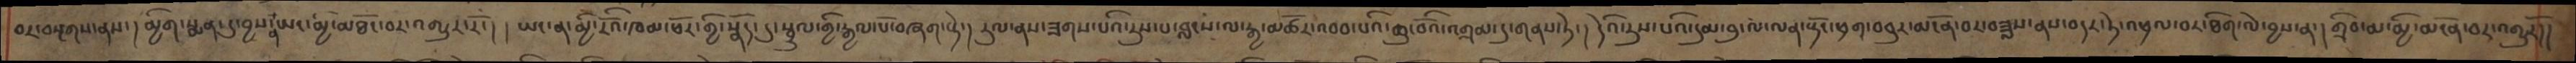བར་བསྔགས་ནས་། མྱིག་སྨན་དུ་བྱས་ན་ཡང་མྱི་མཐོང་བར་འགྱུར་རོ་། །ཡང་ན་མྱི་རོའི་ཁམ་ཕོར་གྱི་སྣོད་དུ་སྦྲུལ་གྱི་རྒྱལ་པོ་བཞག་སྟེ་། རུལ་ནས་ཟགས་པའི་རུས་པ་བླངས་ལ་རྒྱ་མཚོར་འབབ་པའི་ཆུ་བོའི་འགྲམ་དུ་གནས་ཏེ་། དེའི་རུས་པའི་དུམ་བུ་ལ་ལན་སྟོང་ཕྲག་བཅུར་མངོན་པར་བཟླས་ནས་བདར་ཏེ་འཕྲལ་བར་ཐིག་ལེ་བྱས་ན་། གྲིབ་མ་མྱི་མངོན་བར་འགྱུརོ།།
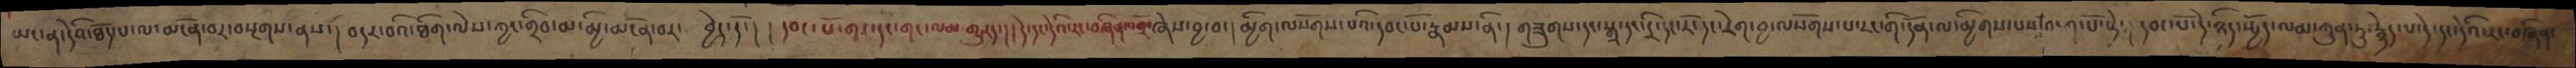ཡང་ན་དེའི་ཐོད་པ་ལ་མངོན་པར་བསྔགས་ནས་། བདར་བའི་ཐིག་ལེས་ཀྱང་གྲིབ་མ་མྱི་མངོན་བར་བྱེད་དོ་། །དབང་པོ་གང་དང་གང་ལམ་གྱུརད་། །དེ་དང་དེའི་རང་བཞིན་འགྲོ་ཞེས་བྱ་བ་། མྱིག་ལསོགས་པའི་དབང་པོ་རྣམས་ནི་། གཟུགས་དང་སྒྲ་དང་དྲི་དང་རོ་དང་རེག་བྱ་ལསོགས་པ་རང་གི་དོན་ལ་མྱིགས་པས་བདག་པོ་སྟེ། དབང་པོ་དེ་ཉིད་སྤྱོད་ལམ་ཀུན་ཏུ་རྙེད་པ་དེ་དང་དེའི་རང་བཞིན་
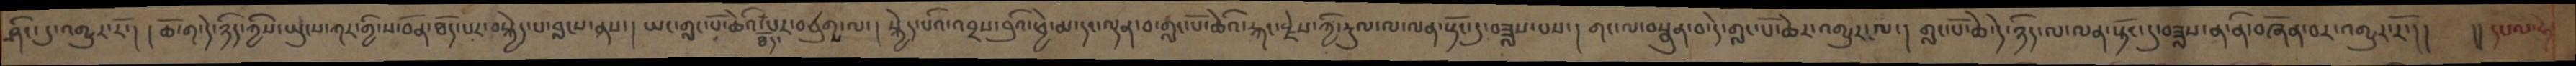ཤིན་ཏུ་འགྱུར་རོ་། །ཆོ་ག་དེ་ཉིད་ཀྱིས་ཡུངས་ཀར་གྱི་ས་བོན་ཐོད་པར་བསྐྱེད་པ་བླངས་ནས་། ཡང་གླང་པོ་ཆེའི་ཐོད་པར་བཙུགས་ལ་། སྐྱེད་པའི་འབྲས་བུའི་ཕྱེ་མ་དང་ལྡན་པ་གླང་པོ་ཆེའི་རྐང་རྗེས་ཀྱི་རྡུལ་ལ་ལན་སྟོང་དུ་བཟླས་པས་། གང་ལ་བསྣུན་པ་དེ་གླང་པོ་ཆེར་འགྱུར་ལ་། གླང་པོ་ཆེ་དེ་ཉིད་ལ་ལན་སྟོང་དུ་བཟླས་ན་ནི་བཞོན་པར་འགྱུར་རོ་།། །།དཔལ་ཧེ་
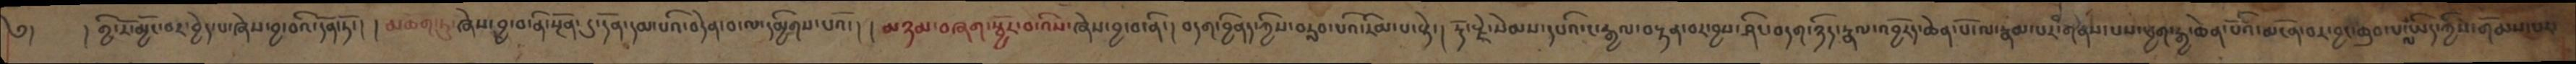༅། །གྱི་རོ་མྱོང་བར་བྱེད་པ་ཞེས་བྱ་བའི་དོན་ཏོ་། །མཆོག་ཏུ་ཞེས་བྱ་བ་ནི་སྔོན་དུ་དོན་དམ་པའི་བདེན་པ་ལ་དམྱིགས་པའོ་། །མཉམ་བཞག་སྦྱོར་བ་འིས་ཞེས་བྱ་བ་ནི་། བདག་བྱིནད་ཀྱིས་བརླབ་པའི་རིམ་པ་སྟེ། རྡོ་རྗེ་སེམས་དཔའི་ང་རྒྱལ་བསྟན་པར་བྱས་ཤིང་བདག་ཉིད་རྣལ་འབྱོརད་ཆེན་པོ་ལ་རྣམ་པར་གནས་པས་ཕྱག་རྒྱ་ཆེན་པོའི་མངོན་པར་བྱང་ཆུབ་པ་ལ་ཡོད་ཀྱིས་གོམས་པར་
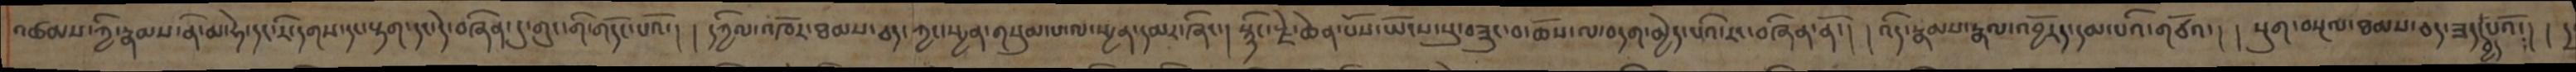འཚམས་ཀྱི་རྣམས་ནི་མ་ཧེ་དང་རི་དགས་དང་སྟག་དང་དེ་བཞིན་དུ་གུང་གི་གདོང་པའོ་། །དཀྱིལ་འཁོར་ཐམས་ཅད་ཀྱང་སྤྱན་གསུམ་པ་ལ་སྤྱན་དམར་ཞིང་། སྙིང་རྗེ་ཆེན་པོས་ཡོངས་སུ་བཟུང་བ་ཆོས་ལ་བདག་མྱེད་པའི་རང་བཞིན་ནོ་། །འདི་རྣམས་རྣལ་འབྱོརད་དམ་པའི་གཙོའ་། །སྡུག་བསྔལ་ཐམས་ཅད་ཟད་བྱེད་པའོ་། །
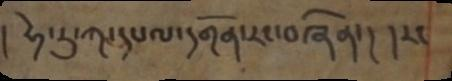།ཧེ་རུ་ཀ་དཔལ་དགོན་རང་བཞིན་། །རང་
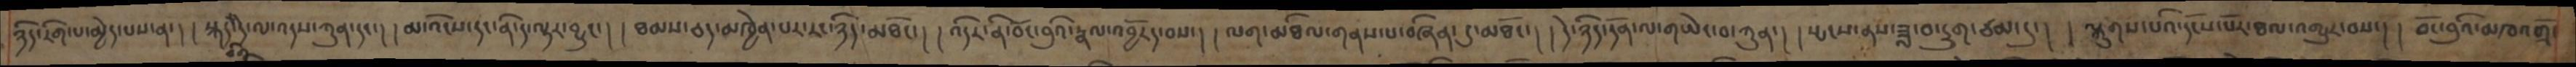ཉིད་རིག་པ་མྱེད་པས་ན་། །སྐད་ཅིག་དེ་ལ་འདས་ཀུན་དང་། །མ་འོངས་དང་ནི་དེ་ལྟར་བྱུང་། །ཐམས་ཅད་མཁྱེན་པར་རང་ཉིད་མཐོང་། །འདིར་ནི་བོང་བུའི་རྣལ་འབྱོརད་བས་། །ལག་མཐིལ་གནས་པ་བཞིན་དུ་མཐོང་། །དེ་ཉིད་དོན་ལ་གཡེང་བ་ཀུན་། །སྤངས་ནས་ཟླ་བ་དྲུག་ཙམ་དུ་། །ལྐུགས་པའི་དངོས་པོར་ཐལ་འགྱུར་བས་། །བོང་བུའི་མཁའགྲོ་
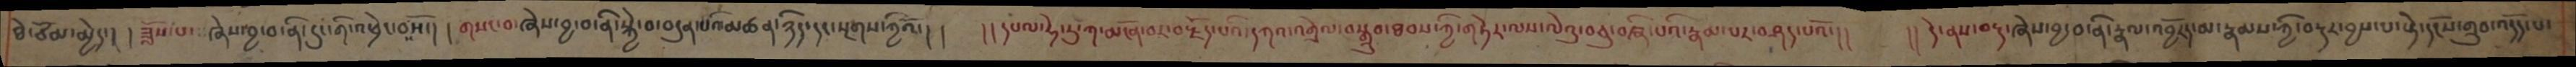ཐེ་ཙོམ་མྱེད་། །ཟློས་པ་ཞེས་བྱ་བ་ནི་དུང་གི་འཕྲེང་བསོ་། །གསང་བ་ཞེས་བྱ་བ་ནི་སྐྱེ་བ་བདུན་པའི་མཚན་ཉིད་དང་སྔགས་ཀྱིའོ་།།   །།དཔལ་ཧེ་རུ་ཀ་མངོན་བར་བརྗོད་པའི་དཀའ་འགྲེལ་བསྒྲུབ་ཐབས་ཀྱི་གཏེར་ལས་ལེའུ་བཅུ་བཞི་པའི་རྣམ་པར་བཤད་པའོ་།།   །།དེ་ནས་བརྡ་ཞེས་བྱ་བ་ནི་རྣལ་འབྱོརད་མ་རྣམས་ཀྱི་བརྡར་བྱས་པ་སྟེ་དངོས་གྲུབ་འདོད་པ་
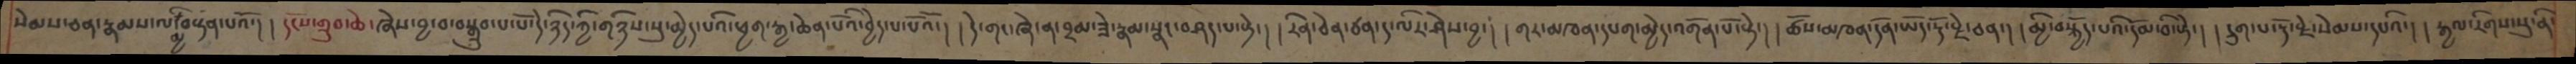སེམས་ཅན་རྣམས་ལ་མྱི་བསྟན་པའོ་། །དངོས་གྲུབ་ཆེ་ཞེས་བྱ་བ་བསྒྲུབ་པ་པོ་དེ་ཉིད་ཀྱི་གཉིས་སུ་མྱེད་པའི་ཕྱག་རྒྱ་ཆེན་པོའི་བྱེད་པ་པོའོ་། །དེ་གང་ཞེ་ན་བྲམ་ཟེ་རྣམ་སྣང་བཤད་པ་སྟེ་། །རིན་ཅེན་ཙན་ད་ལིར་ཤེས་བྱ་། །གར་མཁན་དཔག་མྱེད་འགོན་པོ་སྟེ་། །ཚོས་མཁན་དོན་ཡོད་རྡོ་རྗེ་ཅན་། །མྱི་བསྐྱོད་པའི་དོམ་བི་སྟེ་། །དྲུག་པ་རྡོ་རྗེ་སེམས་དཔའི་། །རྒྱལ་རིགས་སུ་ནི་
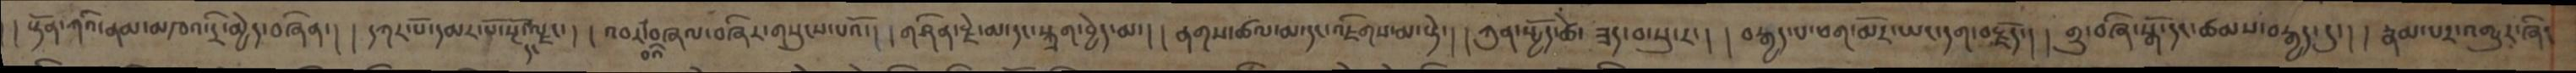། སྟོན་ཀའི་ནམ་མཁའ་དྲི་མྱེད་བཞིན་། །དཀར་པོ་དམར་པོ་སྔོ་དང་ལྗང་། །འབར་བའི་བཞལ་བཞིར་གསུངས་པའོ་། །གཤིན་རྗེ་མ་དང་སྐྲག་བྱེད་མ་། །ནགས་ཚལ་མ་དང་འཇིགས་མ་སྟེ་། །ཀུན་སྤྱོད་ཚེ་ཟད་བ་སུ་ར་། །བརྒྱད་པ་ཕག་མོར་ཡང་དག་བརྗོད་། །གྲུ་བཞི་སྒོ་དང་ཚམས་བརྒྱད་དུ་། །རྣམ་པར་འགྱུར་ཞིང
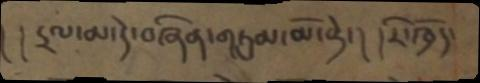། །དྲལ་མ་དེ་བཞིན་གཏུམ་མོ་སྟེ་། །རི་ཁྲོད་
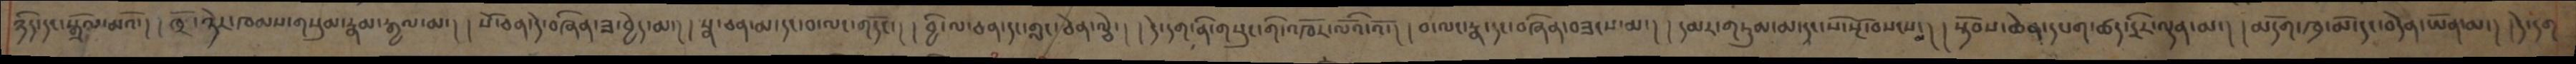ཉིད་དང་སྒྲོལ་མའོ་། །ཁྲོ་ཉེར་ཁམས་གསུམ་རྣམ་རྒྱལ་མ་། །སོ་ཅན་དེ་བཞིན་ཟ་བྱེད་མ་། །སྣ་ཅན་མ་དང་བ་ལང་གདོང་། །བྱི་ལ་ཅན་དང་གླང་ཅེན་ལྕེ་། །དེ་དག་ནི་གསུང་གི་འཁོར་ལོའི་འོ་། །བ་ལང་རྣ་དང་བཞིན་བཟངས་མ་། །དམར་གཏུམ་མ་དང་སོ་སྔོ་བསངས་མ་། །སྟོབས་ཆེན་དཔག་ཚད་དྲིར་ལྡན་མ་། །མདོག་ཁྲ་མོ་དང་བདེན་ཡོན་མ་། །དེ་དག་
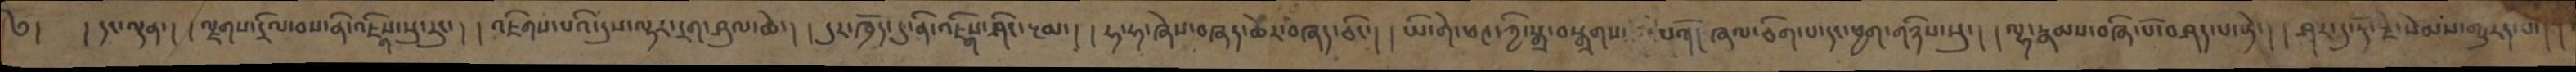༄། །དང་ལྡན་། །ལྗགས་དྲིལ་བས་ནི་འཇིགས་སུ་རུང་། །འཇིགས་པའི་དུས་ལྟར་དྲག་ཤུལ་ཆེ་། །དུར་ཁྲོད་དུ་ནི་འཇིགས་ཤིང་རྔམ་། །ཧ་ཧ་ཞེས་བཞད་ཚེར་བཞད་ཅིང་། །ཡི་གེ་ཕཊ་ཀྱི་སྒྲ་བསྒྲགས་པའོ་། །ཞལ་ཅིག་པ་དང་ཕྱག་གཉིས་སུ་། །ལྷ་རྣམས་བཞི་པོ་བཤད་པ་སྟེ་། །ཤར་དུ་རྡོ་རྗེ་སེམས་གྱུརད་པ་།།
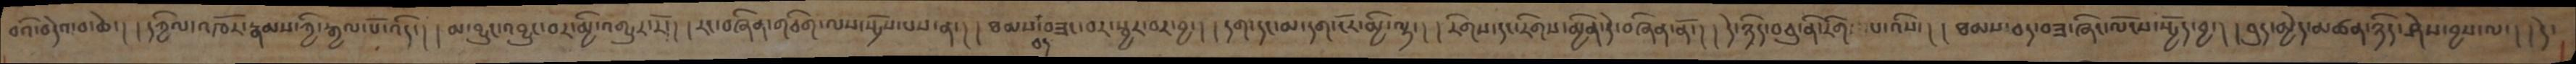བའི་བདེའ་བ་ཆེ་། །དཀྱིལ་འཁོར་རྣམས་ཀྱི་རྒྱལ་པོ་འདི་། །མ་བྱུང་འབྱུང་བར་མྱི་འགྱུར་རོ་། །རང་བཞིན་གཅིག་ལས་སྤྲོས་པས་ན་། །ཐམས་ཅད་བཟང་བར་སྦྱར་བར་བྱ་། །དག་དང་མ་དག་ངོར་མྱི་ལྟ་། །རིགས་དང་རིགས་མྱིན་དེ་བཞིན་ནོ་། །དེ་ཉིད་བཅུ་ནི་རིགས་པ་འིས་། །ཐམས་ཅད་བཟ་ཞིང་ལོངས་སྤྱོད་བྱ་། །བུད་མྱེད་མཚན་ཉིད་ཤེས་བྱས་ལ་། །དེ་
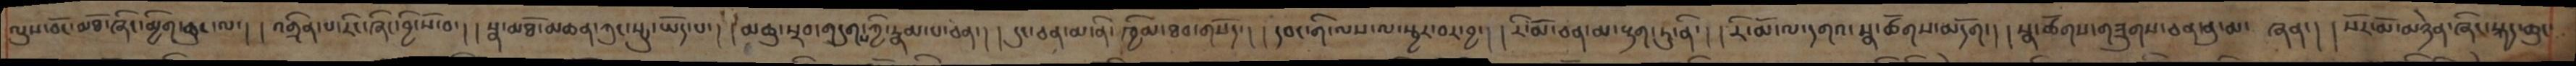ལུས་བོང་མཐོ་ཞིང་མྱིག་ཆུང་ལ་། །འགྲིན་པ་རིང་ཞིང་བྱི་སོ་བ་། །སྣ་མཐོ་མཆན་ཀུང་སྤུ་ཡོད་པ་། །མཆུ་སྲབ་གདུགས་ཀྱི་རྣམ་པ་ཅན་། །དུང་ཅན་མ་ནི་ཁྱིམ་ཐབ་གསོད་། །དབང་གི་ལས་ལ་སྦྱར་བར་བྱ་། །རི་མོ་ཅན་ལ་རྟག་ཏུ་ནི་། །རི་མོ་ལ་དགའ་སྣ་ཚོགས་མདོག་། །སྣ་ཚོགས་གཟུགས་ཅན་ནུ་མ་ཞན་། །སོར་མོ་མཉེན་ཞིང་སྐད་ཆུང་
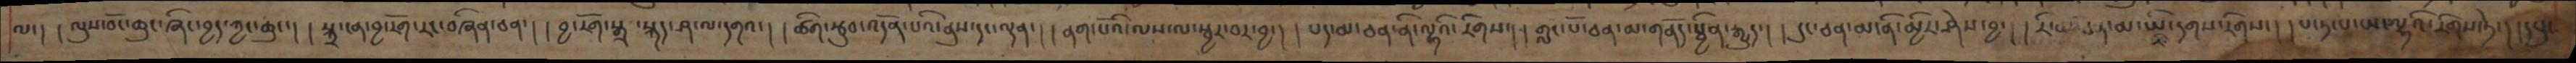ལ་། །ལུས་བོང་ཆུང་ཞིང་བྱད་ཀྱང་ཆུང་། །སྐྲ་ངན་བྱ་རོག་རང་བཞིན་ཅན་། །བྱ་རོག་སྒྲ་སྐད་ཤ་ལ་དགའ་། །ཚིག་རྩུབ་འདོན་པའི་ནུས་དང་ལྡན་། །ནག་པོའི་ལས་ལ་སྦྱར་བར་བྱ་། །པད་མ་ཅན་ནི་ལྷའི་རིགས་། །གླང་པོ་ཅན་མ་གནོད་སྦྱིན་རྒྱུད་། །དུང་ཅན་མ་ནི་མྱིར་ཤེས་བྱ་། །རི་མོ་ཅན་མ་ཡི་དགས་རིགས་། །པ་ཏ་པ་ཡང་ལྷའི་རིགས་ཏེ་། །དཔུང་
